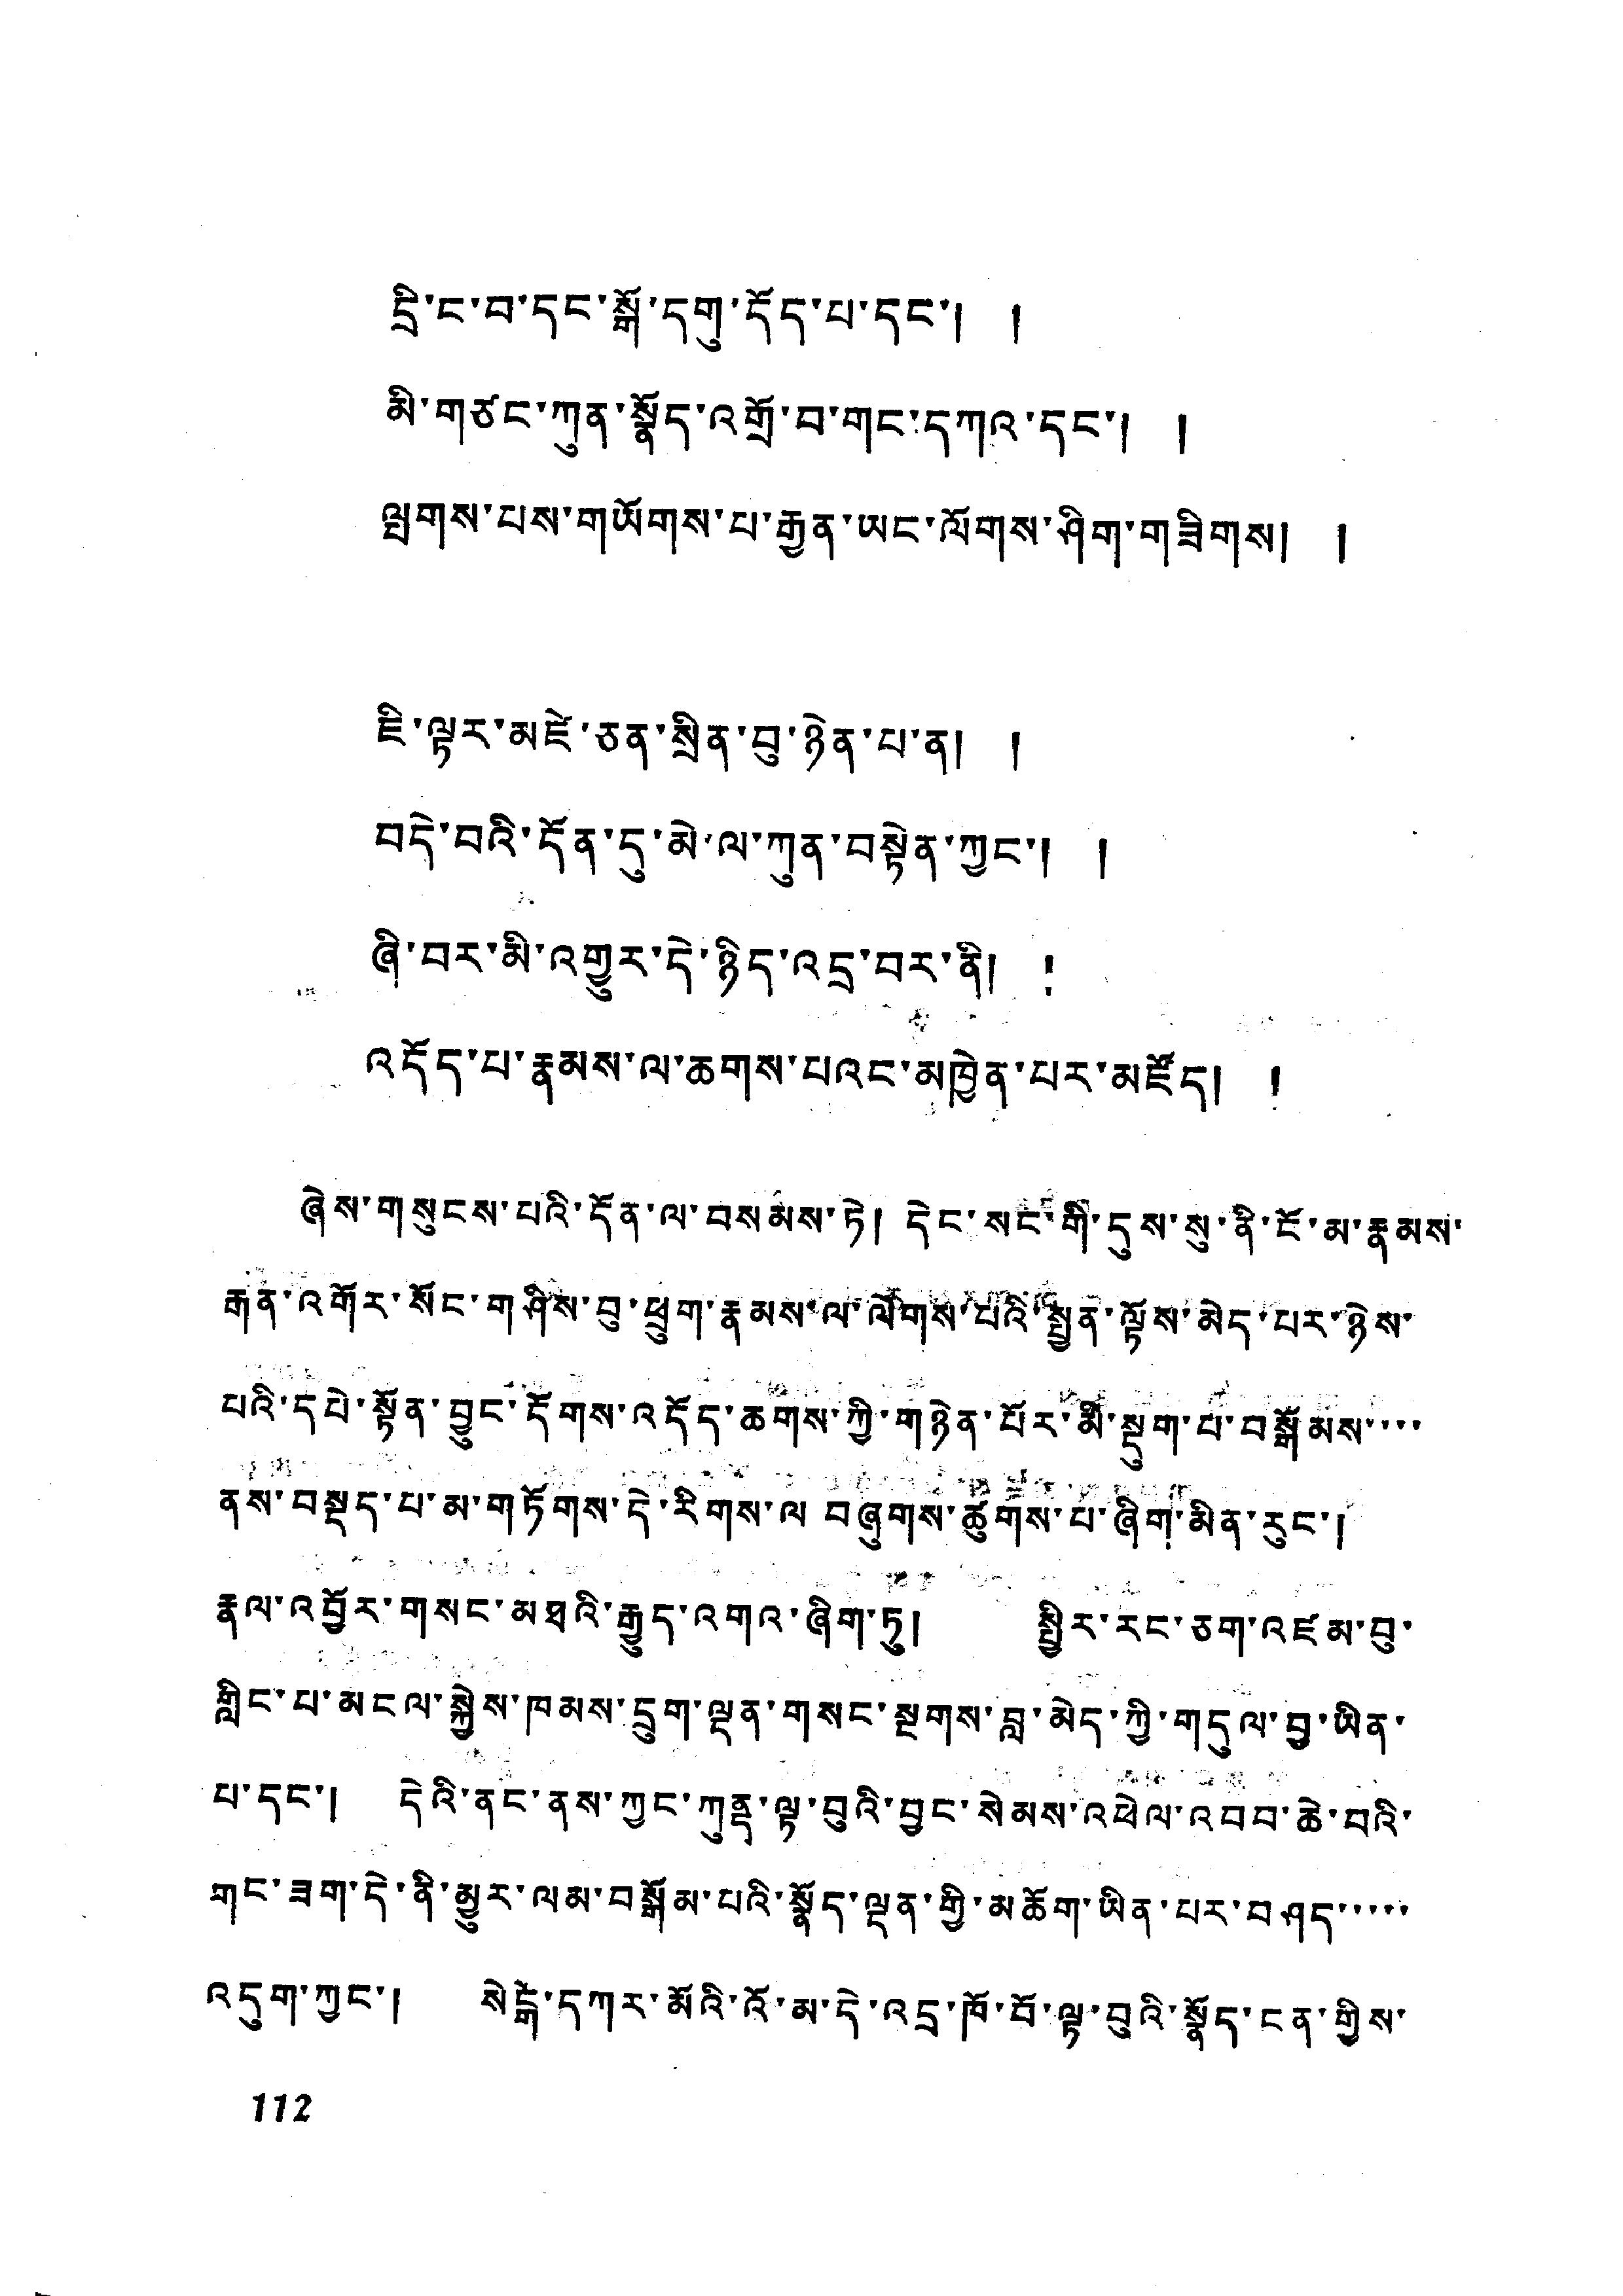དྲི་ང་བ་དང་སྒོ་དགུ་དོད་པ་དང་། །
མི་གཙང་ཀུན་སྣོད་འགྲོ་བ་གང་དཀའ་དང་། །
ལྤགས་པས་གཡོགས་པ་རྒྱན་ཡང་ལོགས་ཤིག་གཟིགས། །
ཇི་ལྟར་མཛེ་ཅན་སྲིན་བུ་ཉེན་པ་ན། །
བདེ་བའི་དོན་དུ་མེ་ལ་ཀུན་བསྟེན་ཀྱང་། །
ཞི་བར་མི་འགྱུར་དེ་ཉིད་འདྲ་བར་ནི། །
འདོད་པ་རྣམས་ལ་ཆགས་པའང་མཁྱེན་པར་མཛོད། །
ཞེས་གསུངས་པའི་དོན་ལ་བསམས་ཏེ། དེང་སང་གི་དུས་སུ་ནི་ངོ་མ་རྣམས་
རྒན་འགོར་སོང་གཤིས་བུ་ཕྲུག་རྣམས་ལ་ལེགས་པའི་སྤྱན་ལྟོས་མེད་པར་ཉེས་
པའི་དཔེ་སྟོན་བྱུང་དོགས་འདོད་ཆགས་ཀྱི་གཉེན་པོར་མི་སྡུག་པ་བསྒོམས་་་་
ནས་བསྡད་པ་མ་གཏོགས་དེ་རིགས་ལ་བཞུགས་ཚུགས་པ་ཞིག་མིན་རུང་།
རྣལ་འབྱོར་གསང་མཐའི་རྒྱུད་འགའ་ཞིག་ཏུ། སྤྱིར་རང་ཅག་འཛམ་བུ་
གླིང་པ་མངལ་སྐྱེས་ཁམས་དྲུག་ལྡན་གསང་སྔགས་བླ་མེད་ཀྱི་གདུལ་བྱ་ཡིན་
པ་དང་། དེའི་ནང་ནས་ཀྱང་ཀུནད་ལྟ་བུའི་བྱང་སེམས་འཕེལ་འབབ་ཆེ་བའི་
གང་ཟག་དེ་ནི་མྱུར་ལམ་བསྒོམ་པའི་སྣོད་ལྡན་གྱི་མཆོག་ཡིན་པར་བཤད་་་་་
འདུག་ཀྱང་། སེངྒེ་དཀར་མོའི་འོ་མ་དེ་འདྲ་ཁོ་བོ་ལྟ་བུའི་སྣོད་ངན་གྱིས་
112
